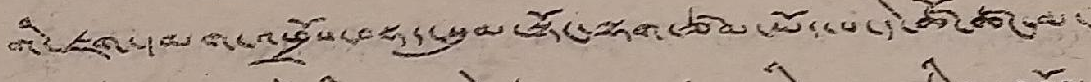གི་ཇག་དམག་འཕྲོས་བསྡད་སུམ་སྟོང་ལྷག་ཙམ་ཡོད་པ་དེ་ཚོ་ཚང་མ་
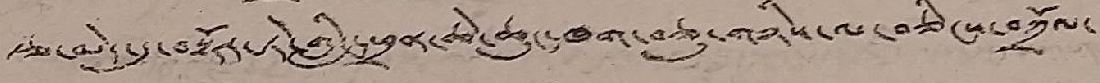རྩ་མེད་དུ་བསྟོར་ཏེ་གླིང་ཕྲན་ཆེ་ཆུང་ཁག་བཅུ་གཉིས་ལ་བཅིངས་བཀྲོལ་
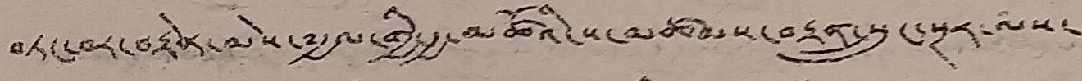བཏང་བར་བརྟེན་མེས་༸རྒྱལ་གྱི་རྒྱ་མཚོའི་ས་མཚམས་བརྟན་སྲུང་སྔར་ལས་
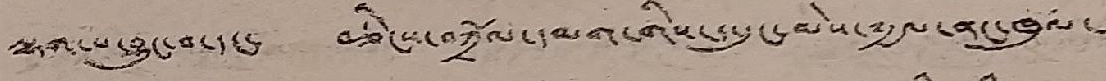ལྷག་པ་བྱུང་བ་དང་ བཅིངས་བཀྲོལ་དམག་གིས་ད་དུང་མེས་༸རྒྱལ་ནང་ཁུལ་
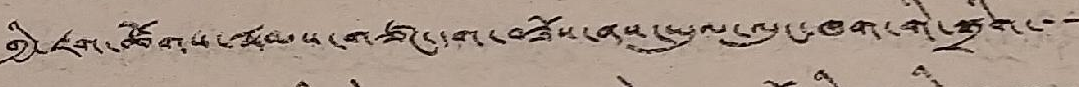གྱི་ཇག་ཚོགས་རྣམས་གཙང་དག་བཟོས་ནས་ཡུལ་ལུང་ཁག་གི་སྒྲིག་་་
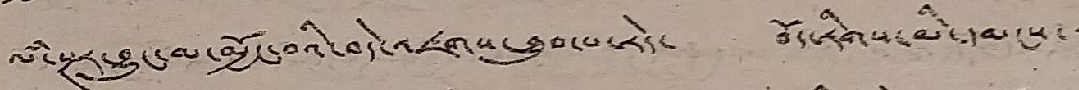ལཾ་སྔར་བྱུང་མ་མྱོང་བའི་བདེ་འཇགས་ཐུབ་ཨོ་རེད་ བོད་རིགས་མི་དམངས་་
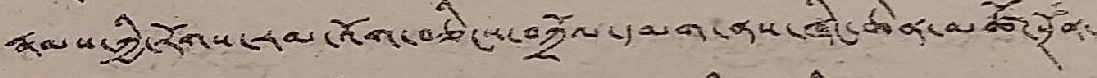རྣམས་ཀྱི་རོགས་རམ་འོག་བཅིངས་བཀྲོལ་དམག་ནས་ཞིང་ཆེན་མཚོ་སྔོན་
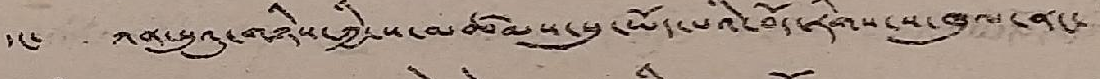དང་ ཀན་སུའུ་གཉིས་ཀྱི་ས་མཚམས་སུ་ཡོད་པའི་བོད་རིགས་ས་ཁུལ་ནང་
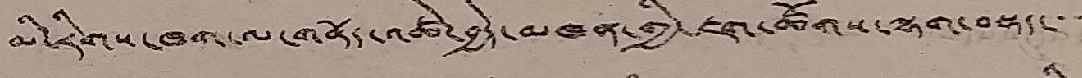མི་རིགས་ཁག་ལ་གནོད་འཚེ་བྱེད་མཁན་གྱི་ཇག་ཚོགས་ལྷག་བསྡད་་་་
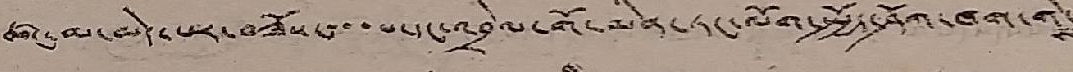ཚང་མ་མེད་པར་བཟོས་་་་པ་དང་འབྲེལ་གོ་མིན་ཏང་ལོག་སྤྱོད་ཤོག་ཁག་གིས་
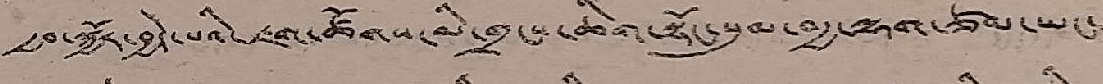རྒྱབ་སྐྱོར་བྱེད་པའི་ཇག་ཚོགས་མི་གྲངས་ཆིག་སྟོང་སུམ་བརྒྱ་ལྷག་ཙམ་ཡང་
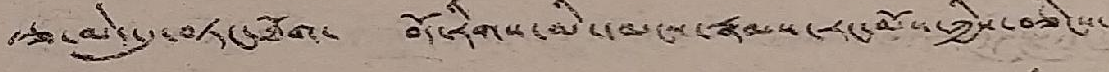རྩ་མེད་དུ་བཏང་ཐོག་ བོད་རིགས་མི་དམངས་རྣམས་རང་མོས་ཀྱིས་བཅིངས་
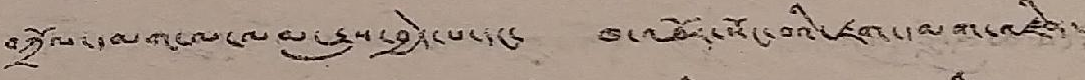བཀྲོལ་དམག་ལ་ལམ་རྒྱུས་བྱེད་པ་དང་ ཁ་ཐོར་སོང་བའི་ཇག་དམག་འཛིན་
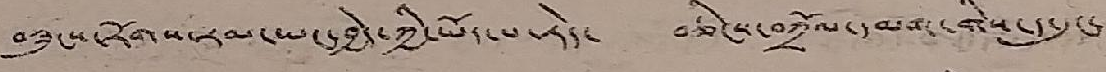བཟུངས་རོགས་རམ་ཡང་བྱེད་ཀྱི་ཡོད་པ་རེད་ བཅིངས་བཀྲོལ་དམག་གིས་ད་དུང་
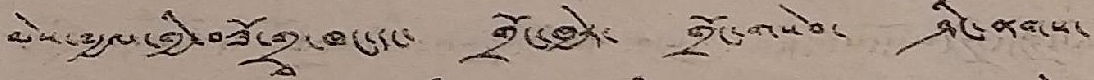མེས་༸རྒྱལ་གྱི་བཟོ་གྲྭ་ཁང་དང་ གྲོང་ཁྱེར་ གྲོང་གསེབ་ ཤིང་ནགས་
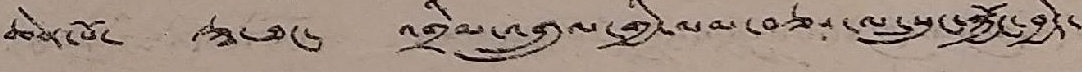ཆེན་པོ་ རྩ་ཐང་ འགྲིམ་འགྲུལ་གྱི་ལམ་བཅས་ལ་སྲུང་སྐྱོང་བྱེད་
